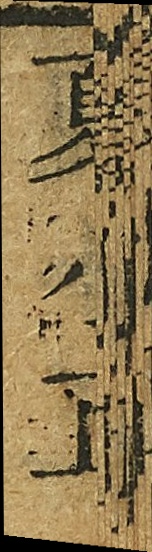夏小正
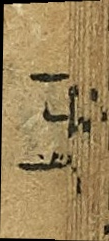五
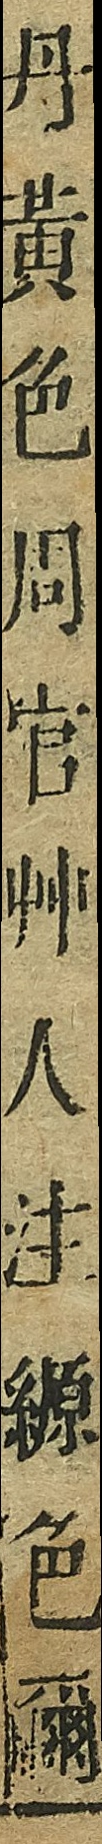丹黃色周官艸人注縓色爾
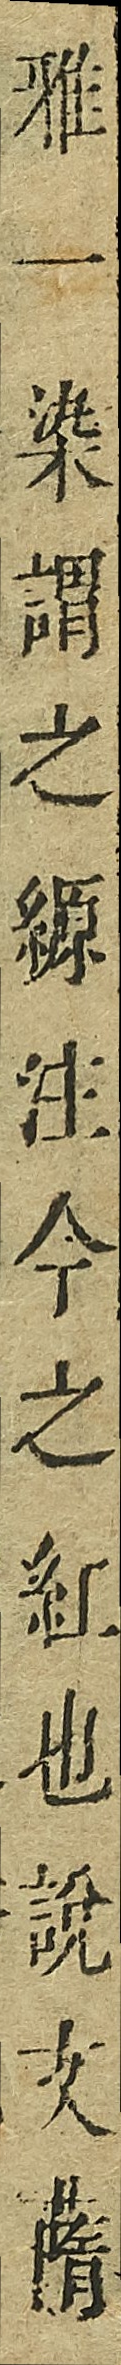雅一染謂之縓注今之紅也說文䔺
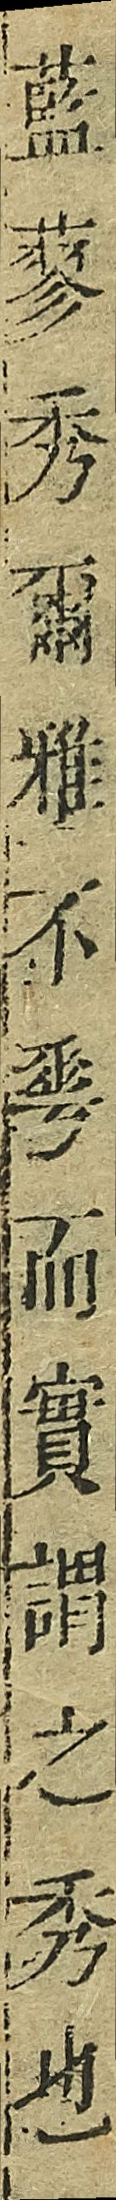藍蓼秀爾雅不雩二實謂之秀也
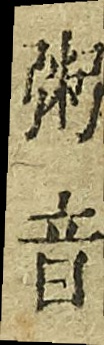粥音
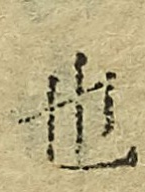也
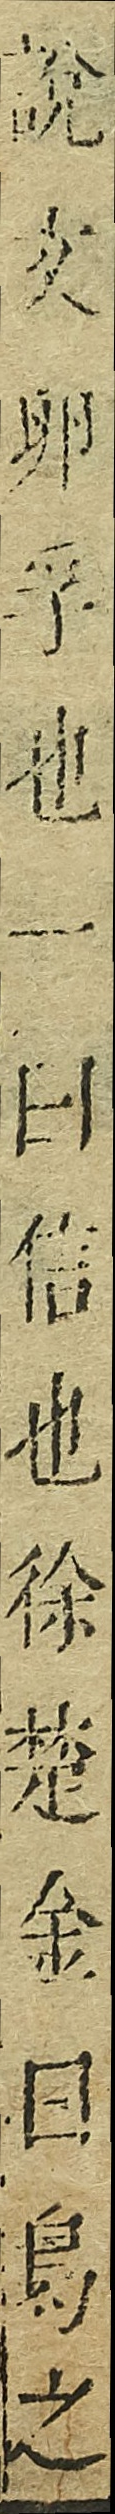說文卵孚也一曰信也徐楚金曰鳥之
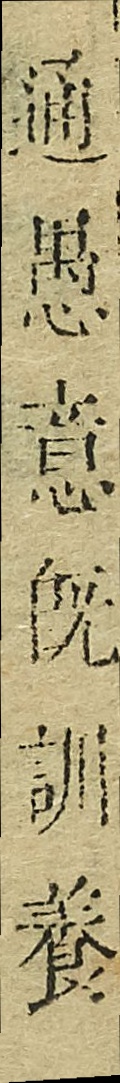相愚意既訓養
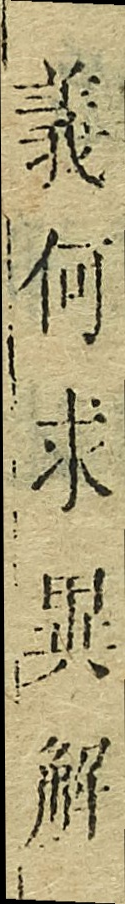義何求異解
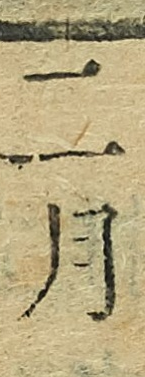二月
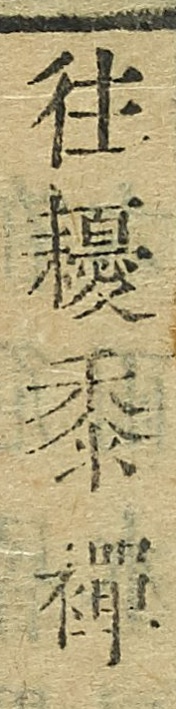往耰黍禪
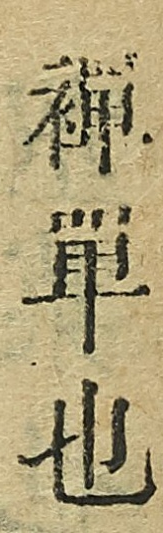禪單也
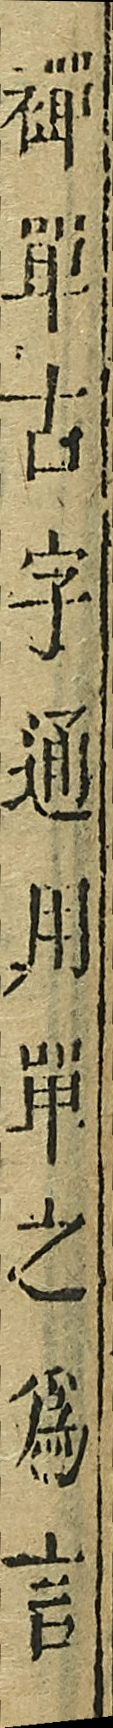禪單古字同用單之為言
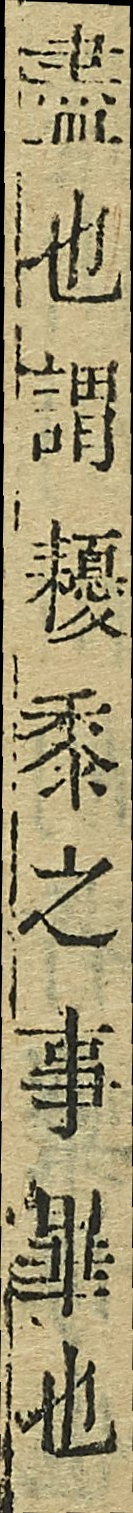盡也謂耰黍之事畢也
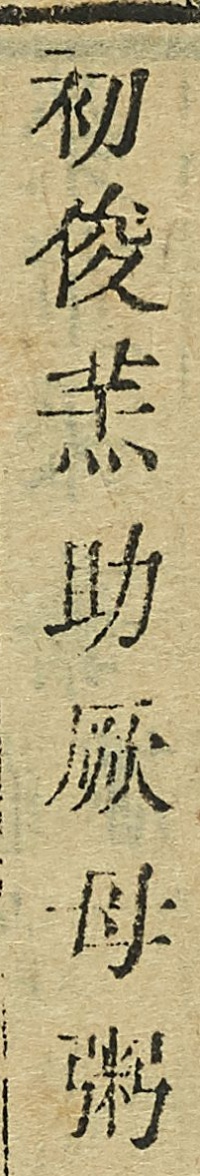初俊羔助厥母粥
